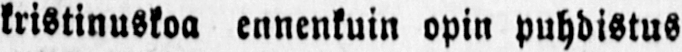kristinuskoa ennenkuin opin puhdistus
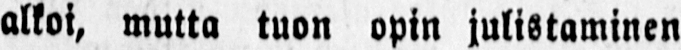alkoi, mutta tuon opin julistaminen
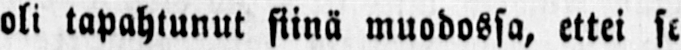oli tapahtunut siinä muodossa, ettei se
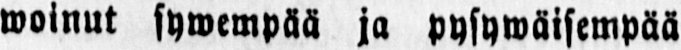woinut sywempää ja pysywäisempää
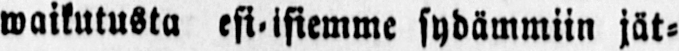waikutusta esi- isiemme sudämmiin jät-
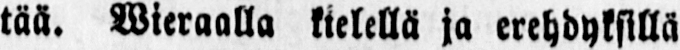tää. Wieraalla kielellä ja erehdyksillä
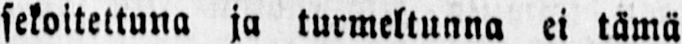sekoitettuna ja turmeltunna ei tämä
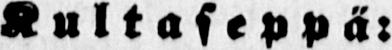Kultaseppä:
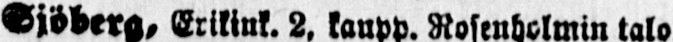Sjöberg,Erikink.2,kaupp.Rosenholmin talo.
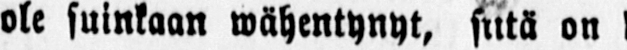ole suinkaan wähentynyt, siitä on hy-
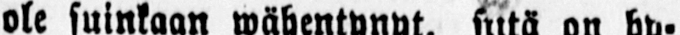wänä todisteena muutamat äskeenkin
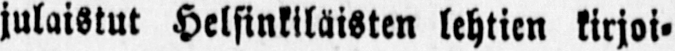julaistut Helsinkiläisten lehtien kirjoi-
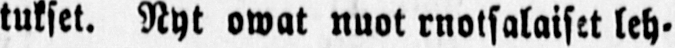tukset. Nyt owat nuot rnotsalaiset leh-
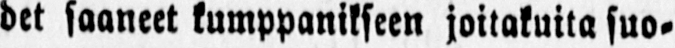det saaneet kumppanikseen joitakuita suo-
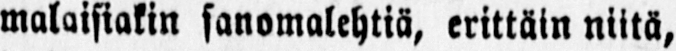malaistakin sanomalehtiä, erittäin niitä,
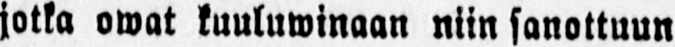jotka owat kuuluwinaan niin sanottuun
